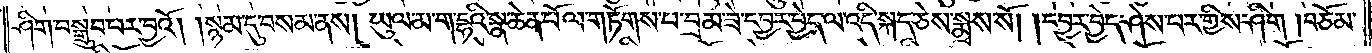ཤིག་བསྒྲུབ་པར་བྱའོ། །སྙམ་དུ་བསམ་ནས། ཡུལ་མ་ག་དྷའི་སྣ་ཆེན་པོ་ལ་གཏོགས་པ་བྲམ་ཟེ་དབྱར་བྱེད་ལ་འདི་སྐད་ཅེས་སྨྲས་སོ། །དབྱར་བྱེད་ཤེས་པར་གྱིས་ཤིག །བཅོམ་
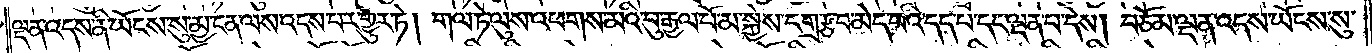ལྡན་འདས་ནི་ཡོངས་སུ་མྱ་ངན་ལས་འདས་པར་གྱུར་ཏེ། གལ་ཏེ་ལུས་འཕགས་མའི་བུ་རྒྱལ་པོ་མ་སྐྱེས་དགྲ་རྩ་བ་མེད་པའི་དད་པ་དང་ལྡན་པ་དེས། བཅོམ་ལྡན་འདས་ཡོངས་སུ་
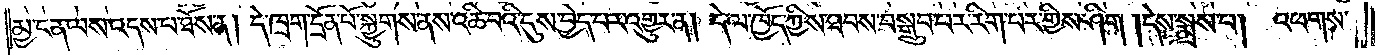མྱ་ངན་ལས་འདས་པ་ཐོས་ན། དེ་ཁྲག་དྲོན་པོ་སྐྱུགས་ནས་འཆི་བའི་དུས་བྱེད་པར་འགྱུར་ན། དེ་ལ་ཁྱོད་ཀྱིས་ཐབས་བསྒྲུབ་པར་རིག་པར་གྱིས་ཤིག །དེས་སྨྲས་པ། འཕགས་
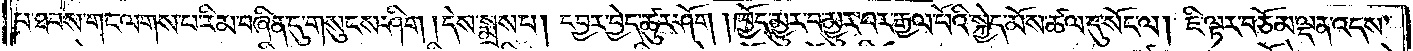པ་ཐབས་གང་ལགས་པ་རིམ་བཞིན་དུ་གསུངས་ཤིག །དེས་སྨྲས་པ། དབྱར་བྱེད་ཚུར་ཤོག །ཁྱོད་མྱུར་བ་མྱུར་བར་རྒྱལ་པོའི་སྐྱེད་མོས་ཚལ་དུ་སོང་ལ། ཇི་ལྟར་བཅོམ་ལྡན་འདས་
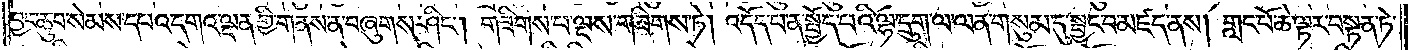བྱང་ཆུབ་སེམས་དཔའ་དགའ་ལྡན་གྱི་གནས་ན་བཞུགས་ཤིང༌། གཟིགས་པ་ལྔས་གཟིགས་ཏེ། འདོད་པ་ན་སྤྱོད་པའི་ལྷ་དྲུག་ལ་ལན་གསུམ་དུ་སྦྱང་བ་མཛད་ནས། གླང་པོ་ཆེ་ལྟར་བསྟན་ཏེ་
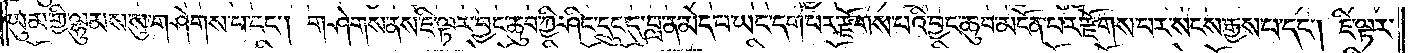ཡུམ་གྱི་ལྷུམས་སུ་གཤེགས་པ་དང༌། གཤེགས་ནས་ཇི་ལྟར་བྱང་ཆུབ་ཀྱི་ཤིང་དྲུང་དུ་བླ་ན་མེད་པ་ཡང་དག་པར་རྫོགས་པའི་བྱང་ཆུབ་མངོན་པར་རྫོགས་པར་སངས་རྒྱས་པ་དང༌། ཇི་ལྟར་
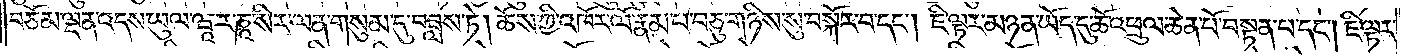བཅོམ་ལྡན་འདས་ཡུལ་ཝཱ་ར་ཎཱ་སིར་ལན་གསུམ་དུ་བཟླས་ཏེ། ཆོས་ཀྱི་འཁོར་ལོ་རྣམ་པ་བཅུ་གཉིས་སུ་བསྐོར་བ་དང༌། ཇི་ལྟར་མཉན་ཡོད་དུ་ཆོས་འཕྲུལ་ཆེན་པོ་བསྟན་པ་དང༌། ཇི་ལྟར་
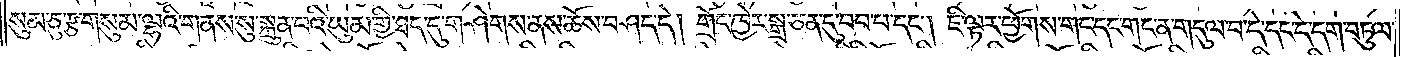སུམ་ཅུ་རྩ་གསུམ་ལྷའི་གནས་སུ་སྐྲུན་པའི་ཡུམ་གྱི་ཐད་དུ་གཤེགས་ནས་ཆོས་བཤད་དེ། གྲོང་ཁྱེར་སྒྲ་ཅན་དུ་བབ་པ་དང༌། ཇི་ལྟར་ཕྱོགས་གང་དང་གང་ན་གདུལ་བ་དེ་དང་དེ་དག་བཏུལ་
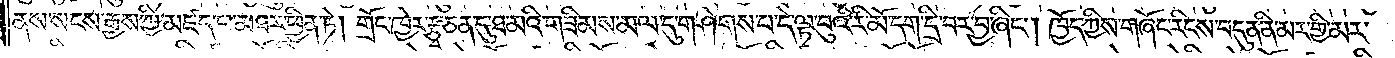ནས་སངས་རྒྱས་ཀྱི་མཛད་པ་མཐར་ཕྱིན་ཏེ། གྲོང་ཁྱེར་རྩྭ་ཅན་དུ་ཐ་མའི་གཟིམས་མལ་དུ་གཤེགས་པ་དེ་ལྟ་བུའི་རི་མོ་དག་དྲི་བར་བྱ་ཞིང༌། ཁྱོད་ཀྱིས་གཞོང་རིངས་བདུན་ནི་མར་གྱི་མར་
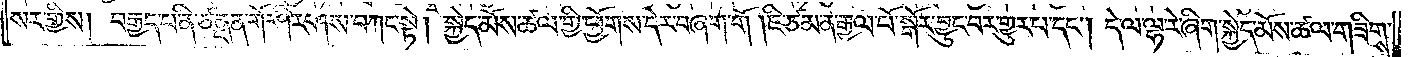སར་གྱིས། བརྒྱད་པ་ནི་ཙནྡན་གོ་ཤིར་ཤས་བཀང་སྟེ། སྐྱེད་མོས་ཚལ་གྱི་ཕྱོགས་དེར་བཞག་གོ །ཇི་ཙམ་ན་རྒྱལ་པོ་སྒོར་བྱུང་བར་གྱུར་པ་དང༌། དེ་ལ་ལྷ་རེ་ཞིག་སྐྱེད་མོས་ཚལ་གཟིགས་
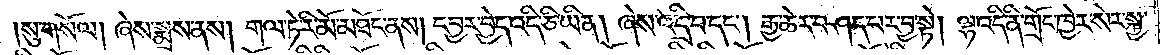སུ་གསོལ། ཞེས་སྨྲས་ནས། གལ་ཏེ་རི་མོ་མཐོང་ནས། དབྱར་བྱེད་འདི་ཅི་ཡིན། ཞེས་འདྲི་བ་དང༌། རྒྱ་ཆེར་བཤད་པར་བྱ་སྟེ། ལྷ་འདི་ནི་གྲོང་ཁྱེར་སེར་སྐྱ་
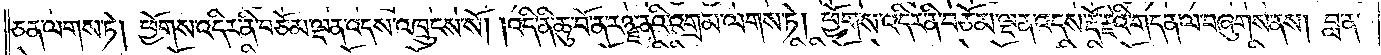ཅན་ལགས་ཏེ། ཕྱོགས་འདིར་ནི་བཅོམ་ལྡན་འདས་འཁྲུངས་སོ། །འདི་ནི་ཆུ་བོ་ན་རཉྫ་ནའི་འགྲམ་ལགས་ཏེ། ཕྱོགས་འདིར་ནི་བཅོམ་ལྡན་འདས་རྡོ་རྗེའི་གདན་ལ་བཞུགས་ནས། བླ་ན་
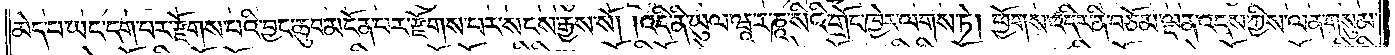མེད་པ་ཡང་དག་པར་རྫོགས་པའི་བྱང་ཆུབ་མངོན་པར་རྫོགས་པར་སངས་རྒྱས་སོ། །འདི་ནི་ཡུལ་ཝཱ་ར་ཎཱ་སིའི་གྲོང་ཁྱེར་ལགས་ཏེ། ཕྱོགས་འདིར་ནི་བཅོམ་ལྡན་འདས་ཀྱིས་ལན་གསུམ་
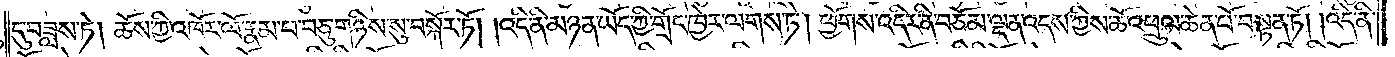དུ་བཟླས་ཏེ། ཆོས་ཀྱི་འཁོར་ལོ་རྣམ་པ་བཅུ་གཉིས་སུ་བསྐོར་ཏོ། །འདི་ནི་མཉན་ཡོད་ཀྱི་གྲོང་ཁྱེར་ལགས་ཏེ། ཕྱོགས་འདིར་ནི་བཅོམ་ལྡན་འདས་ཀྱིས་ཆོ་འཕྲུལ་ཆེན་པོ་བསྟན་ཏོ། །འདི་ནི་
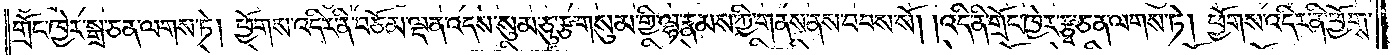གྲོང་ཁྱེར་སྒྲ་ཅན་ལགས་ཏེ། ཕྱོགས་འདིར་ནི་བཅོམ་ལྡན་འདས་སུམ་ཅུ་རྩ་གསུམ་གྱི་ལྷ་རྣམས་ཀྱི་གནས་ནས་བབས་སོ། །འདི་ནི་གྲོང་ཁྱེར་རྩྭ་ཅན་ལགས་ཏེ། ཕྱོགས་འདིར་ནི་ཕྱོགས་
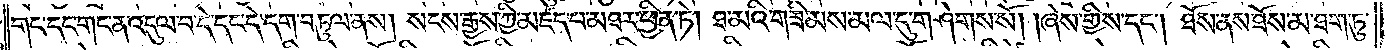གང་དང་གང་ན་འདུལ་བ་དེ་དང་དེ་དག་བཏུལ་ནས། སངས་རྒྱས་ཀྱི་མཛད་པ་མཐར་ཕྱིན་ཏེ། ཐ་མའི་གཟིམས་མལ་དུ་གཤེགས་སོ། །ཞེས་གྱིས་དང༌། ཐོས་ནས་ཐོས་མ་ཐག་ཏུ་
